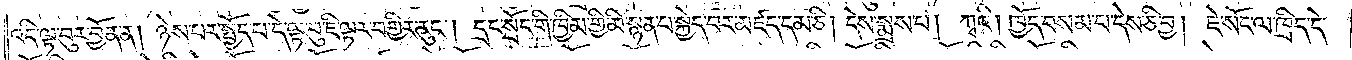འདི་ལྟ་བུར་བྱོན་ན། ཉེས་པར་སྤྱོད་པ་དེ་ལྟ་བུ་ཇི་ལྟར་བགྱིར་རུང༌། དྲང་སྲོང་གི་ཁྱིམ་གྱི་མི་སྙན་པ་སྐྱེད་པར་མཛད་དམ་ཅི། དེས་སྨྲས་པ། ཀྭའི། ཁྱོད་བསམ་པ་དེས་ཅི་བྱ། ཇེ་སོང་ལ་ཁྲིད་དེ་
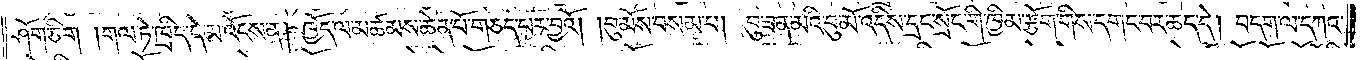ཤོག་ཅིག །གལ་ཏེ་ཁྲིད་དེ་མ་འོངས་ན། ཁྱོད་ལ་མཚམས་ཆེན་པོ་གཅད་པར་བྱའོ། །བུ་མོས་བསམ་པ། བུ་ཟན་མའི་བུ་མོ་འདིས་དྲང་སྲོང་གི་ཁྱིམ་རྩོག་གིས་དགང་བར་ཆད་དེ། བདག་ལ་དཀའ་
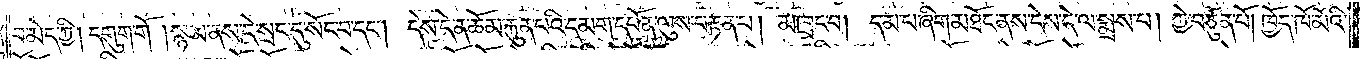བ་མེད་ཀྱི། དགུག་གོ །སྙམ་ནས་དེ་སྲང་དུ་སོང་བ་དང༌། དེས་དེ་ན་ཆོམ་རྐུན་པའི་དམག་དཔོན་ལུས་བརྟན་པ། མཁྲང་བ། དམ་པ་ཞིག་མཐོང་ནས་དེས་དེ་ལ་སྨྲས་པ། ཀྱེ་བཙུན་པོ། ཁྱོད་ཁོ་མོའི་
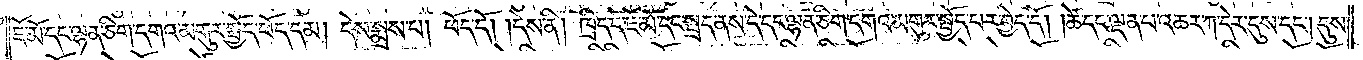ཇོ་མོ་དང་ལྷན་ཅིག་དགའ་མགུར་སྤྱོད་ཕོད་དམ། དེས་སྨྲས་པ། ཕོད་དོ། །དེས་ནི། ཁྲིད་དེ་ཇོ་མོ་དང་སྤྲད་ནས་དེ་དང་ལྷན་ཅིག་དགའ་མགུར་སྤྱོད་པར་བྱེད་དོ། །ཚེ་དང་ལྡན་པ་འཆར་ཀ་དེར་དུས་དང༌། དུས་
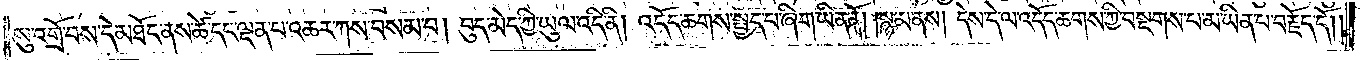སུ་འགྲོ་བས་དེ་མཐོང་ནས་ཚེ་དང་ལྡན་པ་འཆར་ཀས་བསམ་པ། བུད་མེད་ཀྱི་ཡུལ་འདི་ནི། འདོད་ཆགས་སྤྱད་པ་ཞིག་ཡིན་ནོ། །སྙམ་ནས། དེས་དེ་ལ་འདོད་ཆགས་ཀྱི་བསྔགས་པ་མ་ཡིན་པ་བརྗོད་དོ། །
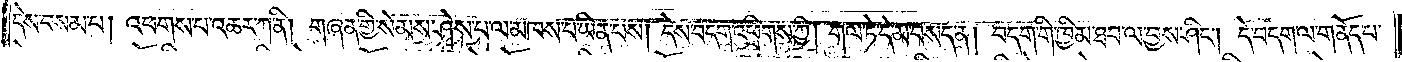དེས་བསམ་པ། འཕགས་པ་འཆར་ཀ་ནི། གཞན་གྱི་སེམས་ཤེས་པ་ལ་མཁས་པ་ཡིན་པས། དེས་བདག་འཕྲིགས་ཀྱི། གལ་ཏེ་དེ་མ་བསད་ན། བདག་གི་ཁྱིམ་ཐབ་ལ་བྱས་ཤིང༌། དེ་བདག་ལ་གནོད་པ་
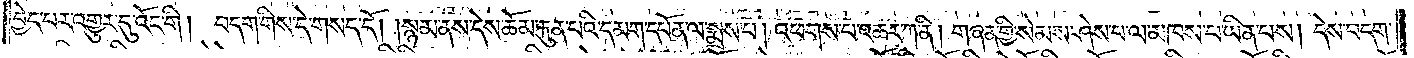བྱེད་པར་འགྱུར་དུ་འོང་གི། བདག་གིས་དེ་གསད་དོ། །སྙམ་ནས་དེས་ཆོམ་རྐུན་པའི་དམག་དཔོན་ལ་སྨྲས་པ། འཕགས་པ་འཆར་ཀ་ནི། གཞན་གྱི་སེམས་ཤེས་པ་ལ་མཁས་པ་ཡིན་པས། དེས་བདག་
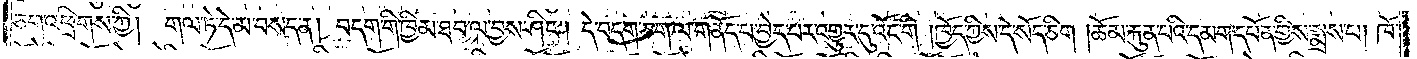ཅག་འཕྲིགས་ཀྱི། གལ་ཏེ་དེ་མ་བསད་ན། བདག་གི་ཁྱིམ་ཐབ་ལ་བྱས་ཤིང༌། དེ་བདག་ཅག་ལ་གནོད་པ་བྱེད་པར་འགྱུར་དུ་འོང་གི །ཁྱོད་ཀྱིས་དེ་སོད་ཅིག །ཆོམ་རྐུན་པའི་དམག་དཔོན་གྱིས་སྨྲས་པ། ཁོ་
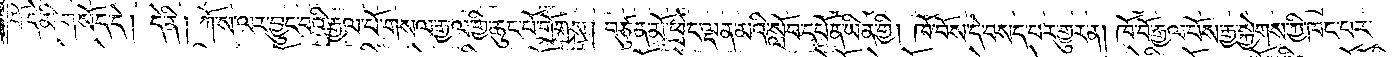བོ་དེ་མི་གསོད་དེ། དེ་ནི། ཀོ་ས་ལར་བྱུང་བའི་རྒྱལ་པོ་གསལ་རྒྱལ་གྱི་ཆུང་པོ་གྲོགས། བཙུན་མོ་ཕྲེང་ལྡན་མའི་སློབ་དཔོན་ཡིན་གྱི། ཁོ་བོས་དེ་བསད་པར་གྱུར་ན། ཁོ་བོ་རྒྱལ་པོས་རྒྱ་སྐྱེགས་ཀྱི་ཁང་པར་
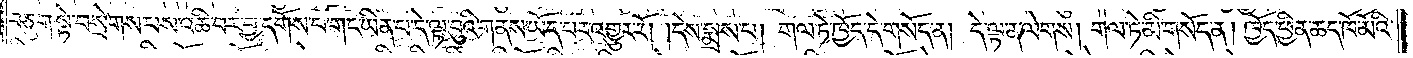བཅུག་སྟེ་བསྲེགས་པས་འཆི་བར་བྱ་དགོས་པ་གང་ཡིན་པ་དེ་ལྟ་བུའི་གནས་ཡོད་པར་འགྱུར་རོ། །དེས་སྨྲས་པ། གལ་ཏེ་ཁྱོད་དེ་གསོད་ན། དེ་ལྟ་ན་ལེགས། གལ་ཏེ་མི་གསོད་ན། ཁྱོད་ཕྱིན་ཆད་ཁོ་མོའི་
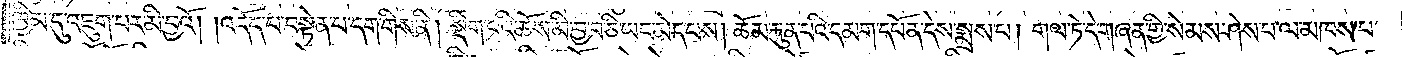ཁྱིམ་དུ་འཇུག་པར་མི་བྱའོ། །འདོད་པ་བསྟེན་པ་དག་གིས་ནི། སྡིག་པའི་ཆོས་མི་བྱ་བ་ཅི་ཡང་མེད་པས། ཆོམ་རྐུན་པའི་དམག་དཔོན་དེས་སྨྲས་པ། གལ་ཏེ་དེ་གཞན་གྱི་སེམས་ཤེས་པ་ལ་མཁས་པ་
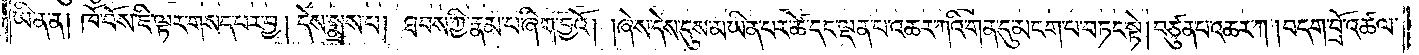ཡིན་ན། ཁོ་བོས་ཇི་ལྟར་གསད་པར་བྱ། དེས་སྨྲས་པ། ཐབས་ཀྱི་རྣམ་པ་ཞིག་བྱའོ། །ཞེས་དེས་དུས་མ་ཡིན་པར་ཚེ་དང་ལྡན་པ་འཆར་ཀའི་གན་དུ་མངག་པ་བཏང་སྟེ། བཙུན་པ་འཆར་ཀ། བདག་བྲོ་འཚལ་
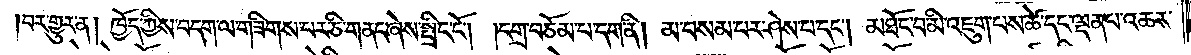བར་གྱུར་ན། ཁྱོད་ཀྱིས་བདག་ལ་གཟིགས་པར་ཅི་གནང་ཞེས་སྤྲིང་ངོ༌། །དགྲ་བཅོམ་པ་དག་ནི། མ་བསམ་པར་ཤེས་པ་དང༌། མཐོང་བ་མི་འཇུག་པས་ཚེ་དང་ལྡན་པ་འཆར་
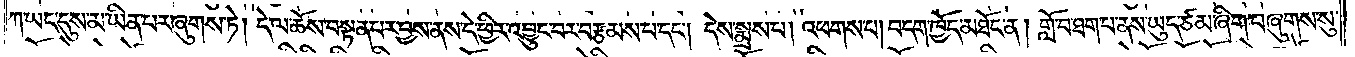ཀ་ཡང་དུས་མ་ཡིན་པར་ཞུགས་ཏེ། དེ་ལ་ཆོས་བསྟན་པར་བྱས་ནས་དེ་ཕྱིར་འབྱུང་བར་བརྩམས་པ་དང༌། དེས་སྨྲས་པ། འཕགས་པ། བདག་ཁྱོད་མཐོང་ན། གློ་བ་ཐག་པ་ནས་ཡུད་ཙམ་ཞིག་བཞུགས་སུ་
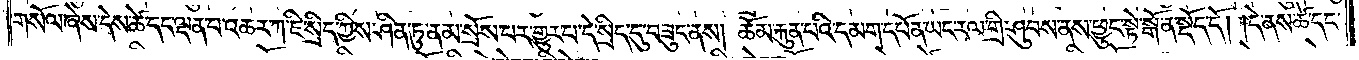གསོལ་ཞེས་དེས་ཚེ་དང་ལྡན་པ་འཆར་ཀ་ཇི་སྲིད་ཀྱིས་ཤིན་ཏུ་ནམ་སྲོས་པར་གྱུར་པ་དེ་སྲིད་དུ་བཟུང་ནས། ཆོམ་རྐུན་པའི་དམག་དཔོན་ཡང་རལ་གྲི་ཤུབས་ནས་ཕྱུང་སྟེ་སྒོ་ན་སྡོད་དོ། །དེ་ནས་ཚེ་དང་
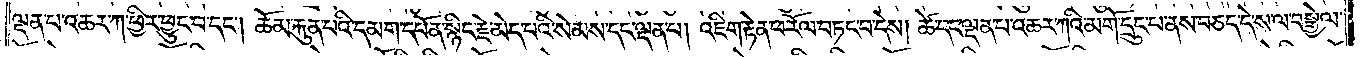ལྡན་པ་འཆར་ཀ་ཕྱིར་ཕྱུང་བ་དང༌། ཆོམ་རྐུན་པའི་དམག་དཔོན་སྙིང་རྗེ་མེད་པའི་སེམས་དང་ལྡན་པ། འཇིག་རྟེན་ཕ་རོལ་བཏང་བ་དེས། ཚེ་དང་ལྡན་པ་འཆར་ཀའི་མགོ་དྲུང་པ་ནས་བཅད་དེ་ས་ལ་བསྒྱེལ་
